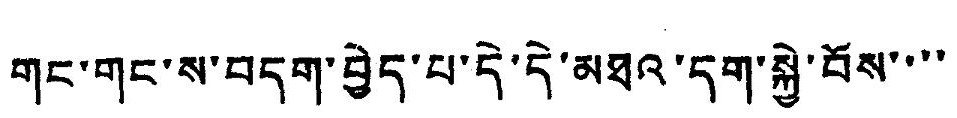གང་གང་ས་བདག་བྱེད་པ་དེ་དེ་མཐའ་དག་སྐྱེ་བོས་་་་
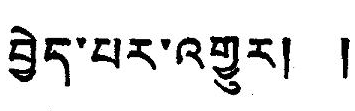བྱེད་པར་འགྱུར། །
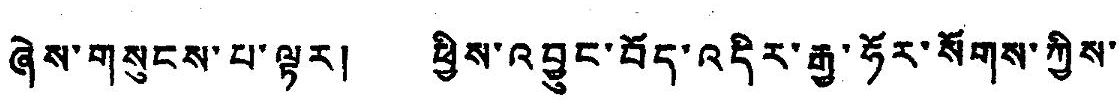ཞེས་གསུངས་པ་ལྟར། ཕྱིས་འབྱུང་བོད་འདིར་རྒྱ་ཧོར་སོགས་ཀྱིས་
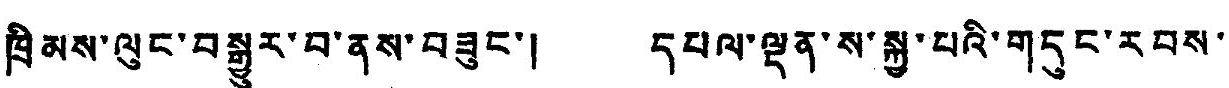ཁྲིམས་ལུང་བསྒྱུར་བ་ནས་བཟུང་། དཔལ་ལྡན་ས་སྐྱ་པའི་གདུང་རབས་
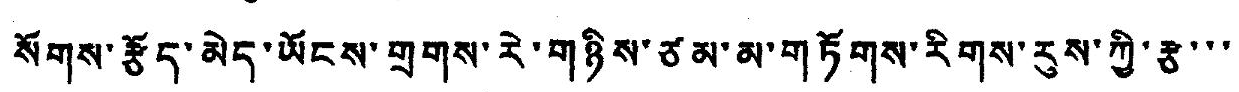སོགས་རྩོད་མེད་ཡོངས་གྲགས་རེ་གཉིས་ཙམ་མ་གཏོགས་རིགས་རུས་ཀྱི་རྩ་་་
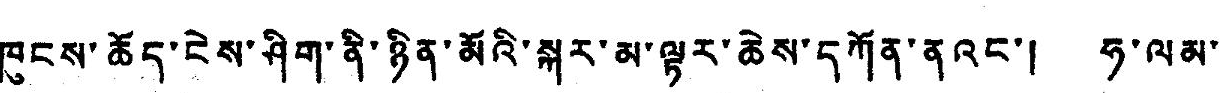ཁུངས་ཆོད་ངེས་ཤིག་ནི་ཉིན་མོའི་སྐར་མ་ལྟར་ཆེས་དཀོན་ནའང་། ཧ་ལམ་
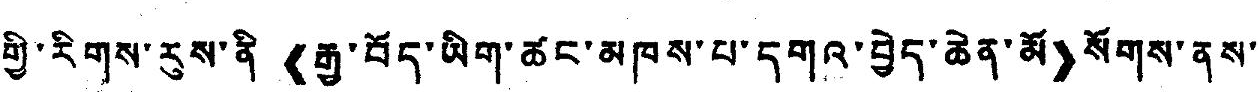གྱི་རིགས་རུས་ནི་《རྒྱ་བོད་ཡིག་ཚང་མཁས་པ་དགའ་བྱེད་ཆེན་མོ》་སོགས་ནས་
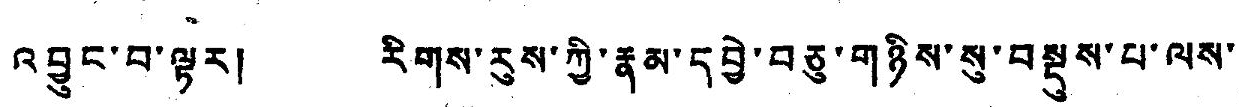འབྱུང་བ་ལྟར། རིགས་རུས་ཀྱི་རྣམ་དབྱེ་བཅུ་གཉིས་སུ་བསྡུས་པ་ལས་
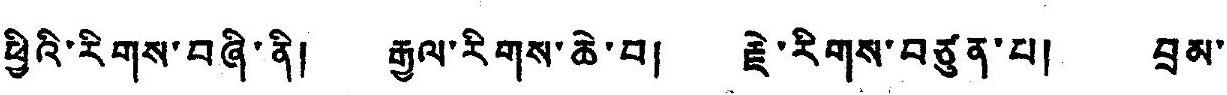ཕྱིའི་རིགས་བཞི་ནི། རྒྱལ་རིགས་ཆེ་བ། རྗེ་རིགས་བཙུན་པ། བྲམ་
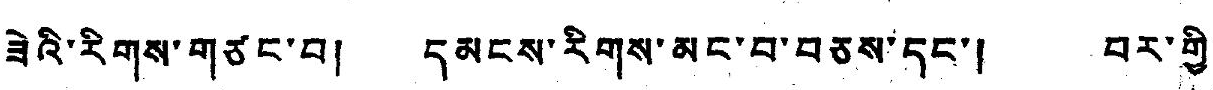ཟེའི་རིགས་གཙང་བ། དམངས་རིགས་མང་བ་བཅས་དང། བར་གྱི་
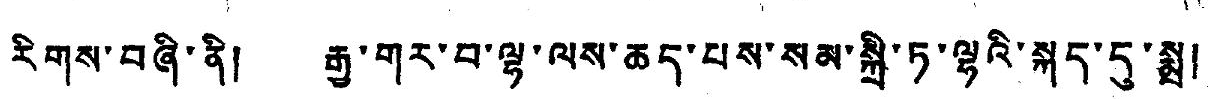རིགས་བཞི་ནི། རྒྱ་གར་བ་ལྷ་ལས་ཆད་པས་སམ་སྐྲི་ཏ་ལྷའི་སྐད་དུ་སྨྲ།
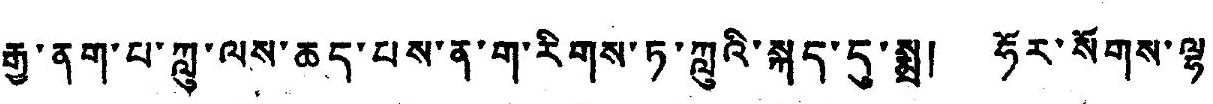རྒྱ་ནག་པ་ཀླུ་ལས་ཆད་པས་ན་ག་རིགས་ཏ་ཀླུའི་སྐད་དུ་སྨྲ། ཧོར་སོགས་ལྷ་
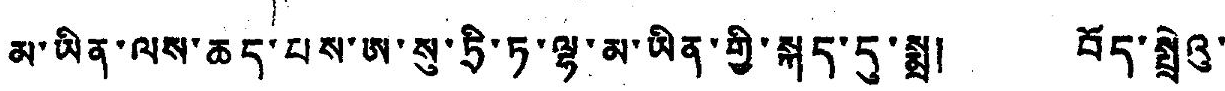མ་ཡིན་ལས་ཆད་པས་ཨ་སུ་ཏྲི་ཏ་ལྷ་མ་ཡིན་གྱི་སྐད་དུ་སྨྲ། བོད་སྤྲེའུ་
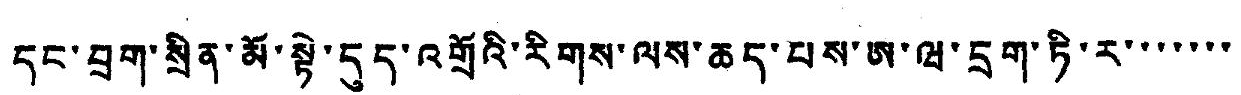དང་བྲག་སྲིན་མོ་སྟེ་དུད་འགྲོའི་རིགས་ལས་ཆད་པས་ཨ་ཝ་དྲག་ཏི་ར་་་་་་་
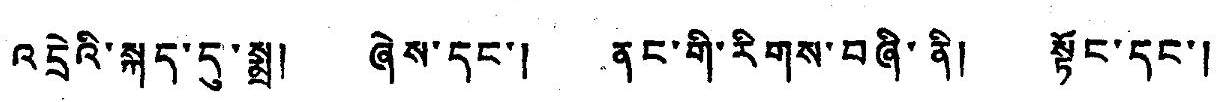འདྲེའི་སྐད་དུ་སྨྲ། ཞེས་དང་། ནང་གི་རིགས་བཞི་ནི། སྟོང་དང་།
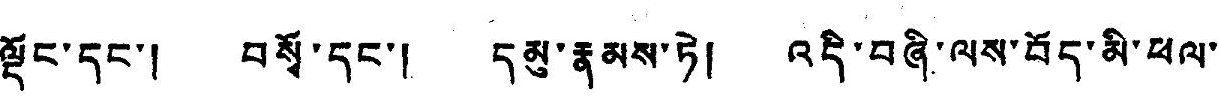ལྡོང་དང་། བསྭོ་དང་། དམུ་རྣམས་ཏེ། འདི་བཞི་ལས་བོད་མི་ཕལ་
